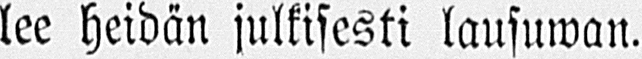lee heidän julkisesti lausuwan.
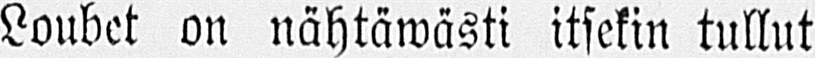Loubet on nähtäwästi itsekin tullut
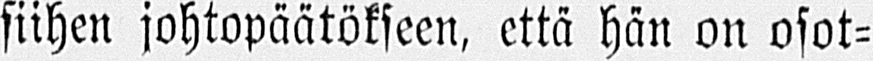siihen johtopäätökseen, että hän on osot-
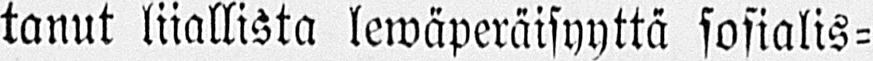tanut liiallista lewäperäisyyttä sosialis-
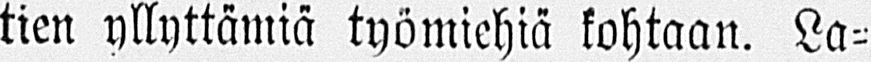tien yllyttämiä työmiehiä kohtaan. La-
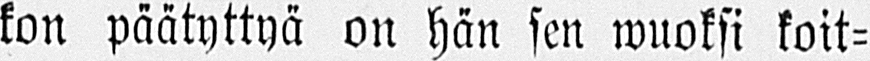kon päätyttyä on hän sen wuoksi koit-
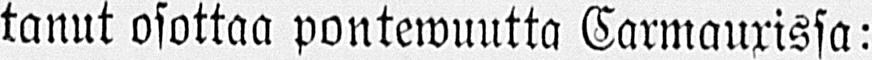tanut osottaa pontewuutta Carmaurissa:
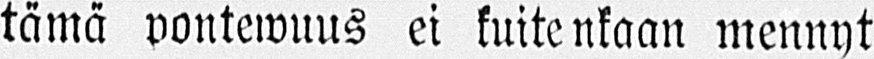tämä pontewuus ei kuitenkaan mennyt
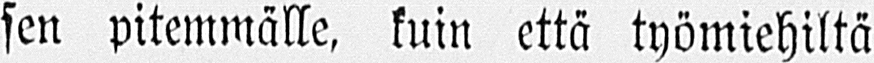sen pitemmälle, kuin että työmiehiltä
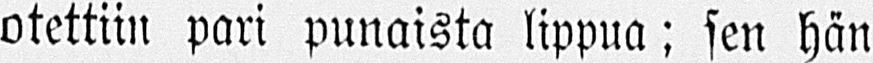otettiin pari punaista lippua; sen hän
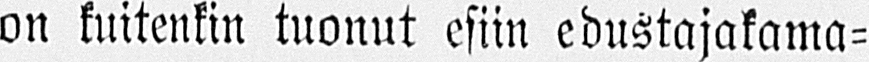on kuitenkin tuonut esiin edustajakama-
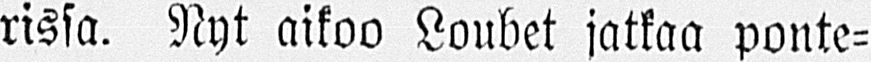rissa. Nyt aikoo Loubet jatkaa ponte-
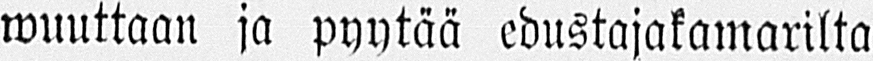wuuttaan ja pyytää edustajakamarilta
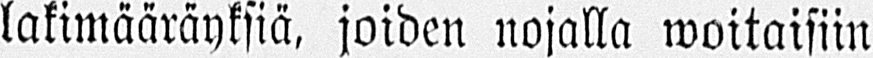lakimääräyksiä, joiden nojalla woitaisiin
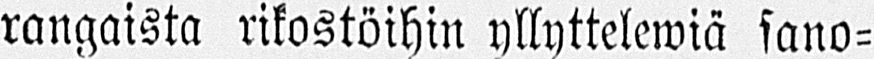rangaista rikostöihin yllyttelewiä sano-
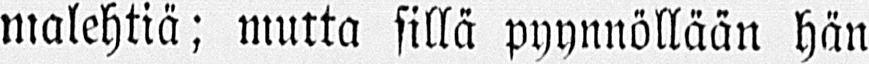malehtiä; mutta sillä pyynnöllään hän
